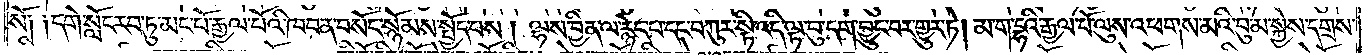སོ༑ ༑དགེ་སློང་རབ་ཏུ་མང་པོ་རྒྱལ་པོའི་ཁབ་ན་བསོད་སྙོམས་སྤྱོད་པས། ལྷས་བྱིན་ལ་རྙེད་པ་དང་བཀུར་སྟི་འདི་ལྟ་བུ་དག་བྱུང་བར་གྱུར་ཏེ། མ་ག་དྷའི་རྒྱལ་པོ་ལུས་འཕགས་མའི་བུ་མ་སྐྱེས་དགྲས་
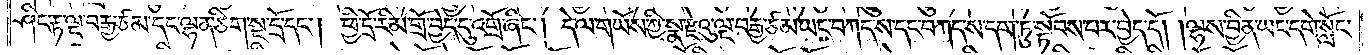ཤིང་རྟ་ལྔ་བརྒྱ་ཙམ་དང་ལྷན་ཅིག་སྔ་དྲོ་དང༌། ཕྱི་དྲོ་རིམ་གྲོ་བྱེད་དུ་འགྲོ་ཞིང༌། དེ་ལ་གཡོས་ཀྱི་སྣ་རྫེའུ་ལྔ་བརྒྱ་ཙམ་ཡང་བཀད་ས་དང་བཀད་ས་དག་ཏུ་སྟོབས་པར་བྱེད་དོ། །ལྷས་བྱིན་ཡང་དགེ་སློང་
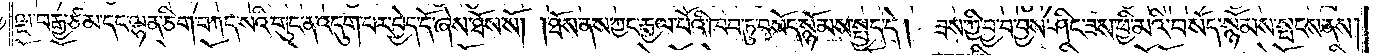ལྔ་བརྒྱ་ཙམ་དང་ལྷན་ཅིག་བཀད་སའི་གུང་ན་འདུག་པར་བྱེད་དོ་ཞེས་ཐོས་སོ། །ཐོས་ནས་ཀྱང་རྒྱལ་པོའི་ཁབ་ཏུ་བསོད་སྙོམས་སྤྱད་དེ། ཟས་ཀྱི་བྱ་བ་བྱས་ཤིང་ཟས་ཕྱི་མའི་བསོད་སྙོམས་སྤངས་ནས།
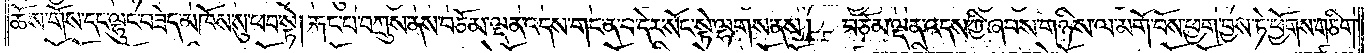ཆོས་གོས་དང་ལྷུང་བཟེད་མཁོས་སུ་ཕབ་སྟེ། རྐང་པ་བཀྲུས་ནས་བཅོམ་ལྡན་འདས་གང་ན་བ་དེར་སོང་སྟེ་ལྷགས་ནས། བཅོམ་ལྡན་འདས་ཀྱི་ཞབས་གཉིས་ལ་མགོ་བོས་ཕྱག་བྱས་ཏེ་ཕྱོགས་གཅིག་
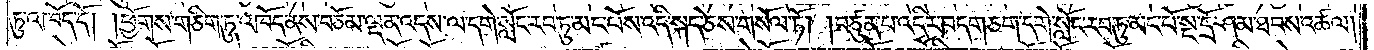ཏུ་འཁོད་དོ། །ཕྱོགས་གཅིག་ཏུ་འཁོད་ནས་བཅོམ་ལྡན་འདས་ལ་དགེ་སློང་རབ་ཏུ་མང་པོས་འདི་སྐད་ཅེས་གསོལ་ཏོ། །བཙུན་པ་འདིར་བདག་ཅག་དགེ་སློང་རབ་ཏུ་མང་པོ་སྔ་དྲོ་ཤམ་ཐབས་འཚལ།
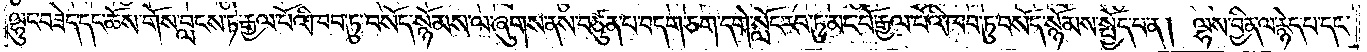ལྷུང་བཟེད་དང་ཆོས་གོས་བླངས་ཏེ་རྒྱལ་པོའི་ཁབ་ཏུ་བསོད་སྙོམས་ལ་ཞུགས་ནས་བཙུན་པ་བདག་ཅག་དགེ་སློང་རབ་ཏུ་མང་པོ་རྒྱལ་པོའི་ཁབ་ཏུ་བསོད་སྙོམས་སྤྱོད་པ་ན། ལྷས་བྱིན་ལ་རྙེད་པ་དང་
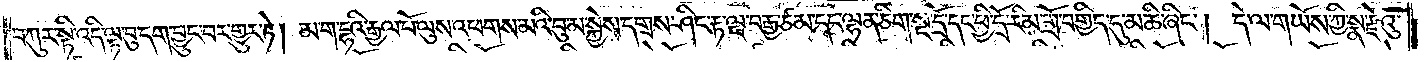བཀུར་སྟི་འདི་ལྟ་བུ་དག་བྱུང་བར་གྱུར་ཏེ། མ་ག་དྷའི་རྒྱལ་པོ་ལུས་འཕགས་མའི་བུ་མ་སྐྱེས་དགྲས་ཤིང་རྟ་ལྔ་བརྒྱ་ཙམ་དང་ལྷན་ཅིག་སྔ་དྲོ་དང་ཕྱི་དྲོ་རིམ་གྲོ་བགྱིད་དུ་མཆི་ཞིང༌། དེ་ལ་གཡོས་ཀྱི་སྣ་རྫེའུ་
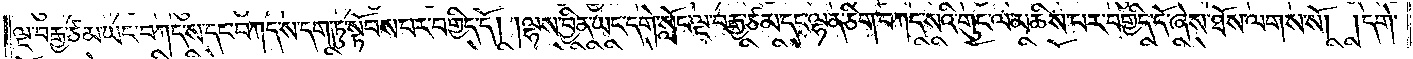ལྔ་བརྒྱ་ཙམ་ཡང་བཀད་ས་དང་བཀད་ས་དག་ཏུ་སྟོབས་པར་བགྱིད་དོ། །ལྷས་བྱིན་ཡང་དགེ་སློང་ལྔ་བརྒྱ་ཙམ་དང་ལྷན་ཅིག་བཀད་སའི་གུང་ལ་མཆིས་པར་བགྱིད་དོ་ཞེས་ཐོས་ལགས་སོ། །དགེ་
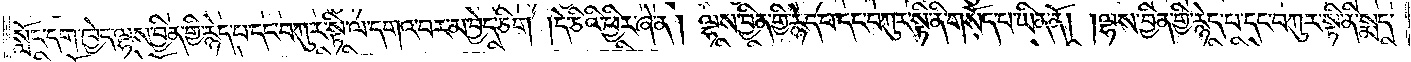སློང་དག་ཁྱེད་ལྷས་བྱིན་གྱི་རྙེད་པ་དང་བཀུར་སྟི་ལ་དགའ་བར་མ་བྱེད་ཅིག། དེ་ཅིའི་ཕྱིར་ཞེ་ན། ལྷས་བྱིན་གྱི་རྙེད་པ་དང་བཀུར་སྟི་ནི་གསོད་པ་ཡིན་ནོ། །ལྷས་བྱིན་གྱི་རྙེད་པ་དང་བཀུར་སྟི་ནི་སྨད་
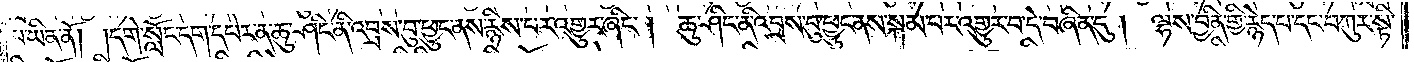པ་ཡིན་ནོ། །དགེ་སློང་དག་དཔེར་ན་ཆུ་ཤིང་ནི་འབྲས་བུ་ཕྱུང་ནས་རྙིས་པར་འགྱུར་ཞིང༌། ཆུ་ཤིང་ནི་འབྲས་བུ་ཕྱུང་ནས་སྐམ་པར་འགྱུར་བ་དེ་བཞིན་དུ། ལྷས་བྱིན་གྱི་རྙེད་པ་དང་བཀུར་སྟི་
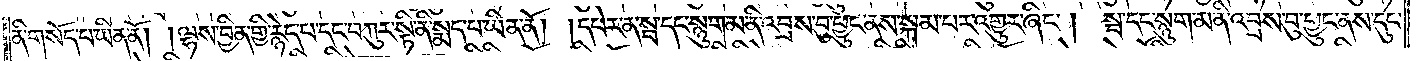ནི་གསོད་པ་ཡིན་ནོ། །ལྷས་བྱིན་གྱི་རྙེད་པ་དང་བཀུར་སྟི་ནི་སྨད་པ་ཡིན་ནོ། །དཔེར་ན་སྦ་དང་སྙུག་མ་ནི་འབྲས་བུ་ཕྱུང་ནས་སྐམ་པར་འགྱུར་ཞིང༌། སྦ་དང་སྙུག་མ་ནི་འབྲས་བུ་ཕྱུང་ནས་དུང་
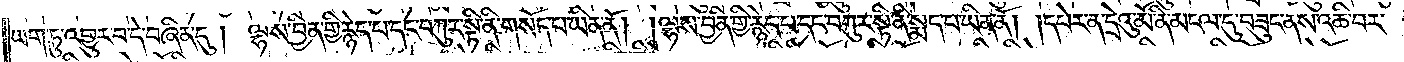ཡག་ཏུ་འགྱུར་བ་དེ་བཞིན་དུ། ལྷས་བྱིན་གྱི་རྙེད་པ་དང་བཀུར་སྟི་ནི་གསོད་པ་ཡིན་ནོ། །ལྷས་བྱིན་གྱི་རྙེད་པ་དང་བཀུར་སྟི་ནི་སྨད་པ་ཡིན་ནོ། །དཔེར་ན་དྲེའུ་མོ་ནི་མངལ་དུ་བཟུང་ནས་འཆི་བར་
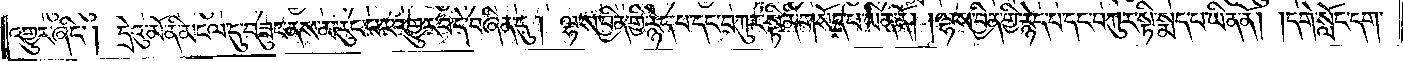འགྱུར་ཞིང༌། དྲེའུ་མོ་ནི་མངལ་དུ་བཟུང་ནས་མ་རུང་བར་འགྱུར་བ་དེ་བཞིན་དུ། ལྷས་བྱིན་གྱི་རྙེད་པ་དང་བཀུར་སྟི་ནི་གསོད་པ་ཡིན་ནོ། །ལྷས་བྱིན་གྱི་རྙེད་པ་དང་བཀུར་སྟི་སྨད་པ་ཡིན་ནོ། །དགེ་སློང་དག་
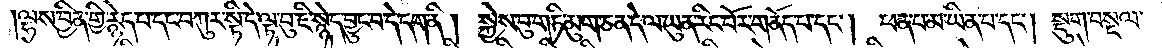།ལྷས་བྱིན་གྱི་རྙེད་པ་དང་བཀུར་སྟི་དེ་ལྟ་བུ་ཇི་སྙེད་བྱུང་བ་དེ་དག་ནི། སྐྱེས་བུ་གཏི་མུག་ཅན་དེ་ལ་ཡུན་རིང་པོར་གནོད་པ་དང༌། ཕན་པ་མ་ཡིན་པ་དང༌། སྡུག་བསྔལ་
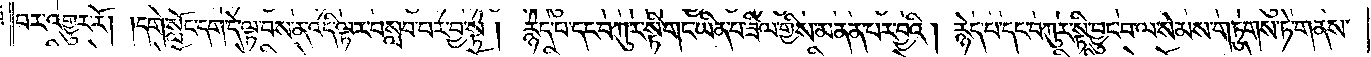བར་འགྱུར་རོ། །དགེ་སློང་དག་དེ་ལྟ་བས་ན་འདི་ལྟར་བསླབ་པར་བྱ་སྟེ།<gap>རྙེད་པ་དང་བཀུར་སྟི་གང་ཡིན་པ་ཟིལ་གྱིས་མནན་པར་བྱའི། རྙེད་པ་དང་བཀུར་སྟི་བྱུང་བ་ལ་སེམས་གཏུགས་ཏེ་གནས་
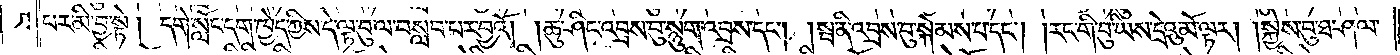པར་མི་བྱ་སྟེ། དགེ་སློང་དག་ཁྱེད་ཀྱིས་དེ་ལྟ་བུ་ལ་བསླབ་པར་བྱའོ། །ཆུ་ཤིང་འབྲས་བུ་སྙུག་འབྲས་དང༌། །སྦ་ནི་འབྲས་བུ་སྐེམས་པ་དང༌། །རང་གི་བུ་ཡིས་དྲེའུ་མོ་ལྟར། །སྐྱེས་བུ་ཐ་ཤལ་
